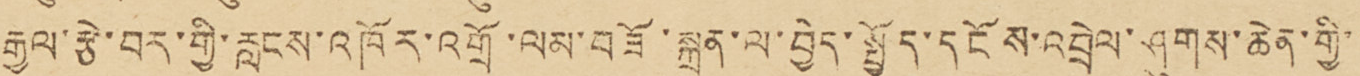རྒྱལ་རྩེ་བར་གྱི་རླངས་འཁོར་འགྲོ་ལམ་བཟོ་སྐྲུན་ལ་བྱེད་སྤྱོད་དངོས་འབྲེལ་ཤུགས་ཆེན་གྱི་་་
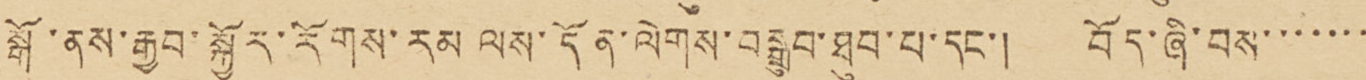སྒོ་ནས་རྒྱབ་སྐྱོར་རོགས་རམ་ལས་དོན་ལེགས་བསྒྲུབ་ཐུབ་པ་དང་། བོད་ཞི་བས་་་་་་་་
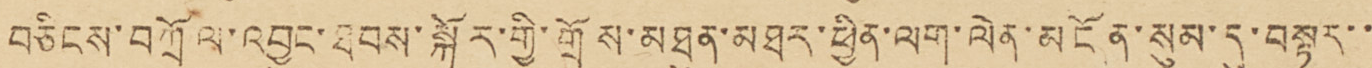བཅིངས་བཀྲོལ་འབྱུང་ཐབས་སྐོར་གྱི་གྲོས་མཐུན་མཐར་ཕྱིན་ལག་ལེན་མངོན་སུམ་དུ་བསྟར་་་
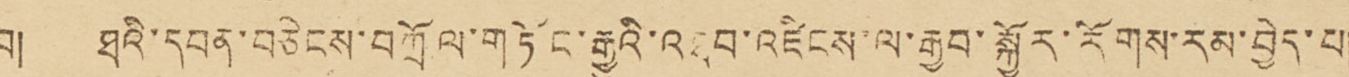བ། ཐའི་དབན་བཅིངས་བཀྲོལ་གཏོང་རྒྱུའི་འཐབ་འཛིངས་ལ་རྒྱབ་སྐྱོར་རོགས་རམ་བྱེད་པ།
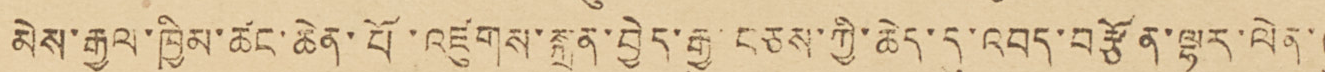མེས་རྒྱལ་ཁྱིམ་ཚང་ཆེན་པོ་འཛུགས་སྐྲུན་བྱེད་རྒྱུ་བཅས་ཀྱི་ཆེད་དུ་འབད་བརྩོན་ལྷུར་ལེན་ཞུ་
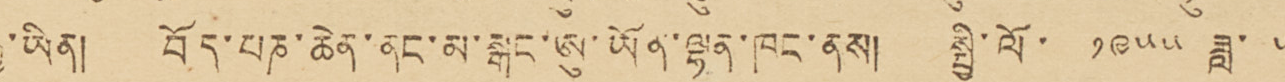རྒྱུ་ཡིན། བོད་པཎ་ཆེན་ནང་མ་སྒང་ཨུ་ཡོན་ལྷན་ཁང་ནས། སྤྱི་ལོ་ ༡༩༥༥ ཟླ་ ༥
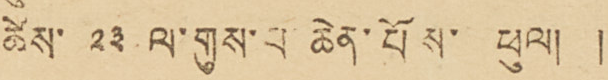ཚེས་ ༢༣ ལ་གུས་པ་ཆེན་པོས་ཕུལ། །
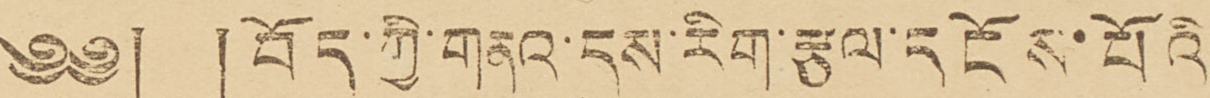༄༅། །བོད་ཀྱི་གནའ་དུས་རིག་རྩལ་དངོས་པོའི་
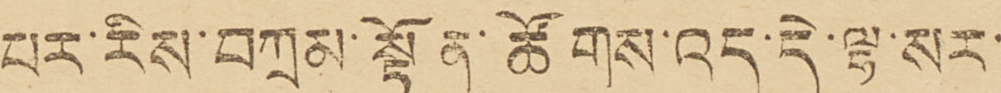པར་རིས་བཀྲམ་སྟོན་ཚོགས་འདུ་དེ་ལྷ་སར་
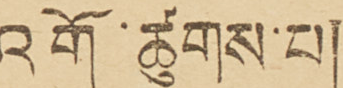འགོ་ཚུགས་པ།
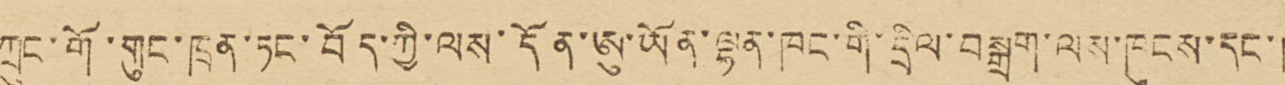ཀྲུང་གོ་གུང་ཁྲན་ཏང་བོད་ཀྱི་ལས་དོན་ཨུ་ཡོན་ལྷན་ཁང་གི་དྲིལ་བསྒྲག་ལས་ཁུངས་དང་།
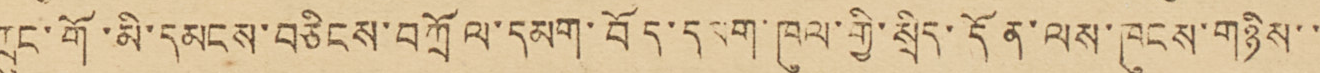ཀྲུང་གོ་མི་དམངས་བཅིངས་བཀྲོལ་དམག་བོད་དམག་ཁུལ་གྱི་སྲིད་དོན་ལས་ཁུངས་གཉིས་་་
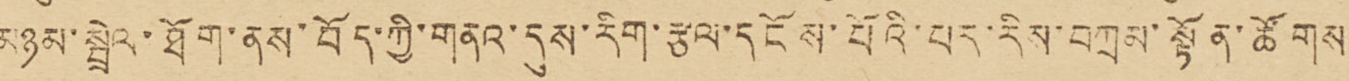མཉམ་སྦྲེལ་ཐོག་ནས་བོད་ཀྱི་གནའ་དུས་རིག་རྩལ་དངོས་པོའི་པར་རིས་བཀྲམ་སྟོན་ཚོགས་་
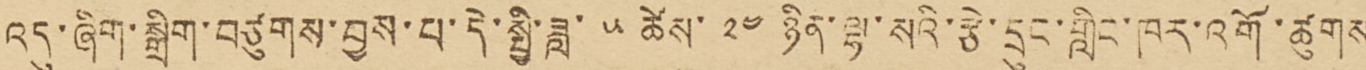འདུ་ཞིག་སྒྲིག་བཙུགས་བྱས་པ་དེ་སྤྱི་ཟླ་ ༥ ཚེས་ ༢༤ ཉིན་ལྷ་སའི་རྩེ་དྲུང་གླིང་ཁར་འགོ་ཚུགས་
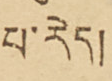པ་རེད།
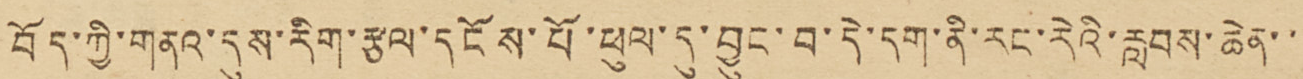བོད་ཀྱི་གནའ་དུས་རིག་རྩལ་དངོས་པོ་ཕུལ་དུ་བྱུང་བ་དེ་དག་ནི་རང་རེའི་རླབས་ཆེན་་་
